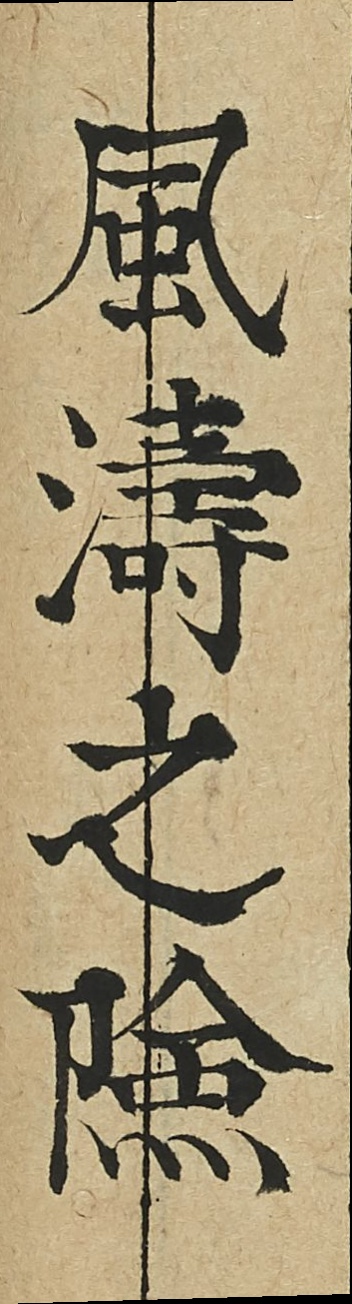風濤之險
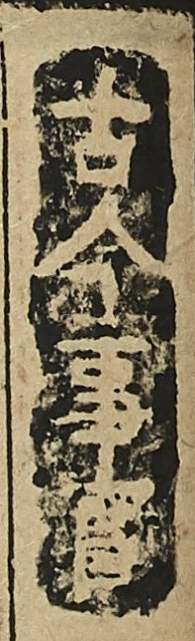古今事實
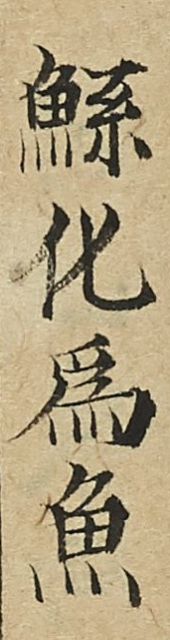鯀化為魚
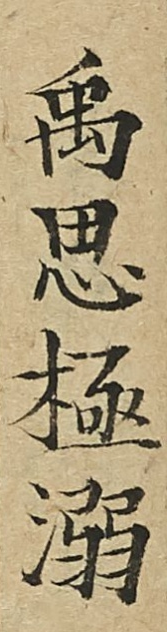禹思拯溺
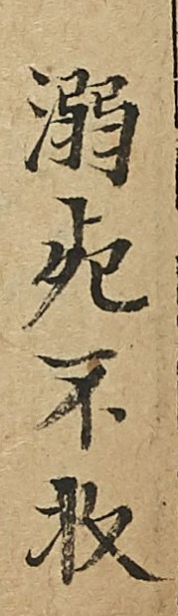溺死不收
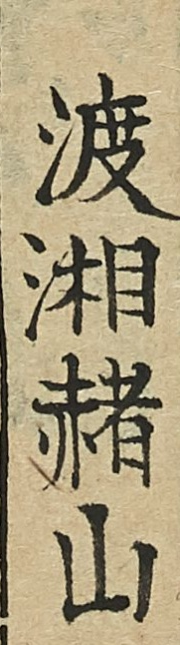渡湘赭山
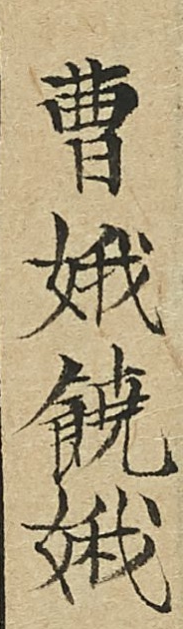曹娥饒娥
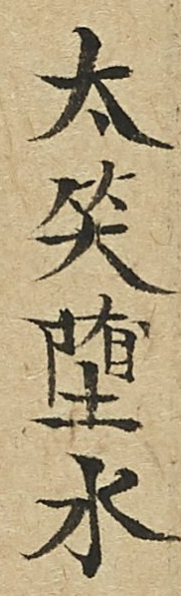太笑墮水
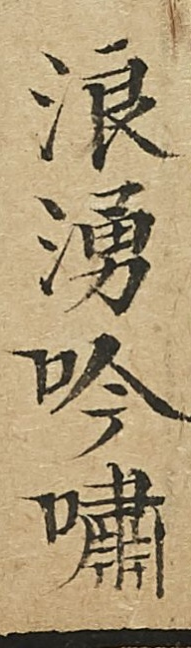浪湧吟嘯
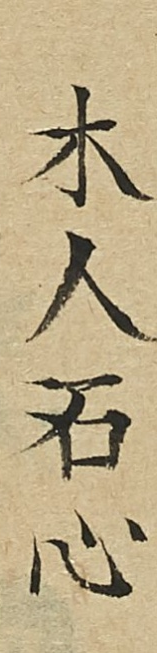木人石心
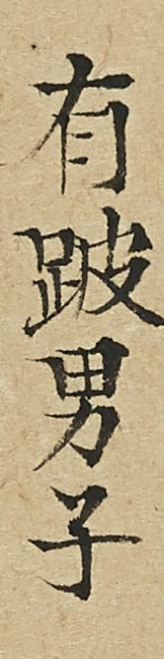有跛男子
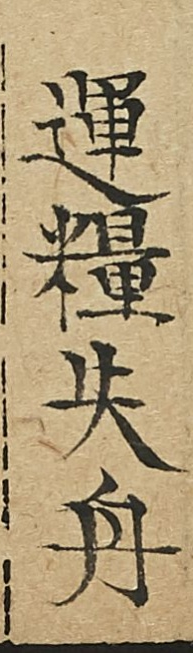運糧失舟
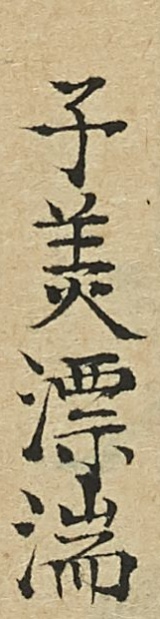子美漂湍
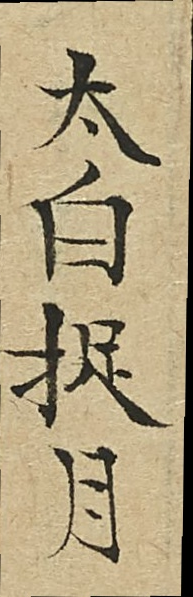太白捉月
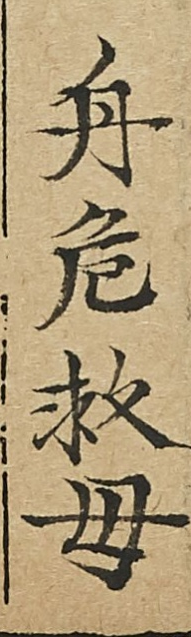舟危救母
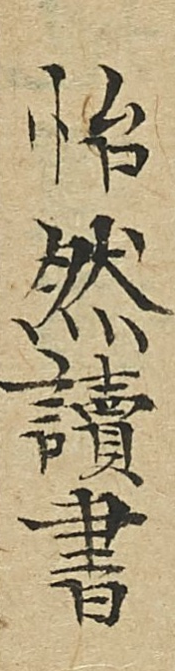怡然讀書
